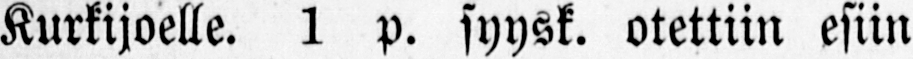Kurkijoelle. 1 p. syysk. otettiin esiin
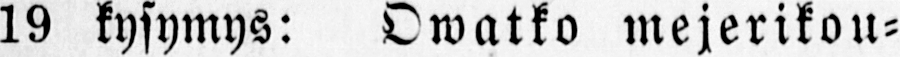19 kysymys: Owatko mejerikou-
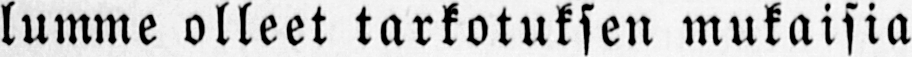lumme olleet tarkotuksen mukaisia
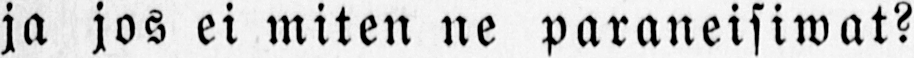ja jos ei miten ne paraneisiwat?
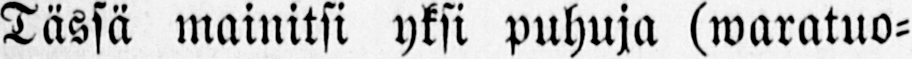Tässä mainitsi yksi puhuja (waratuo-
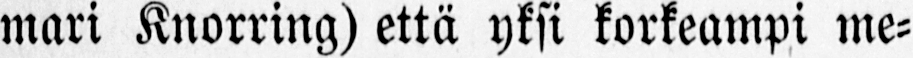mari Knorring) että yksi korkeampi me-
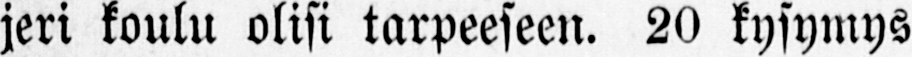jeri koulu olisi tarpeeseen. 20 kysymys
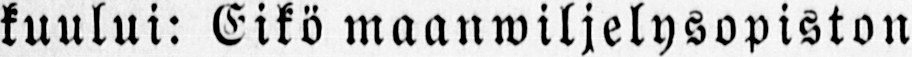kuului: Eikö maanwiljelysopiston
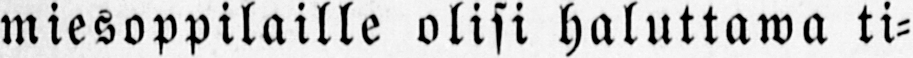miesoppilaille olisi haluttawa ti-
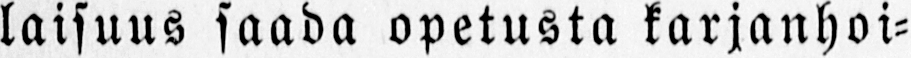laisuus saada opetusta karjanhoi-
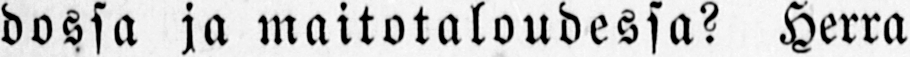dossa ja maitotaloudessa? Herra
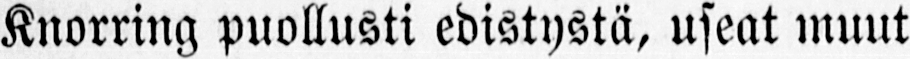Knorring puollusti edistystä, useat muut
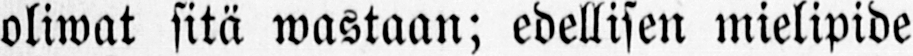oliwat sitä wastaan; edellisen mielipide
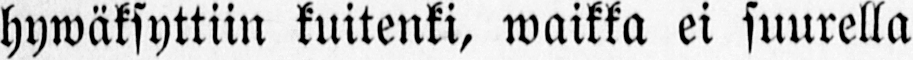hywäksyttiin kuitenki, waikka ei suurella
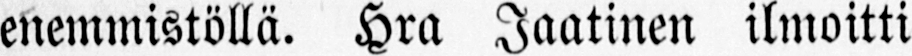enemmistöllä. Hra Jaatinen ilmoitti
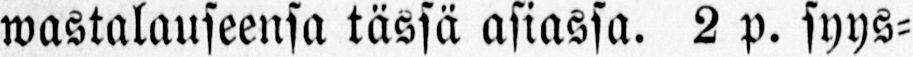wastalauseensa tässä asiassa. 2 p. syys-
